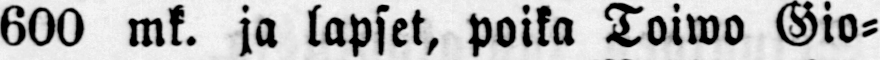600 mk. ja lapset, poika Toiwo Gio-
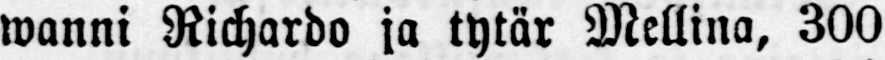wanni Richardo ja tytär Mellina, 300
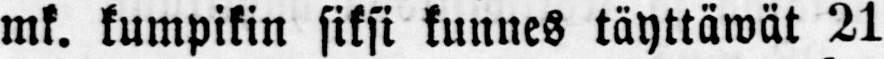mk. kumpikin siksi kunnes täyttäwät 21
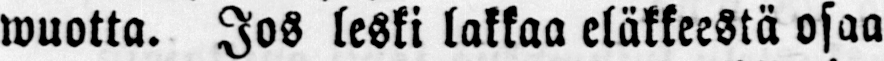wuotta. Jos leski lakkaa eläkkeestä osaa
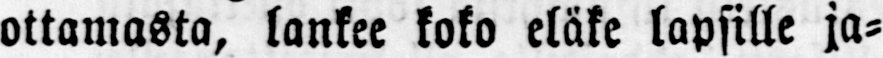ottamasta, lankee koko eläke lapsille ja-
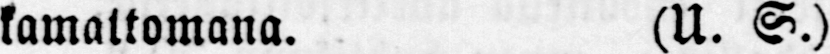kamattomana. (U. S.)
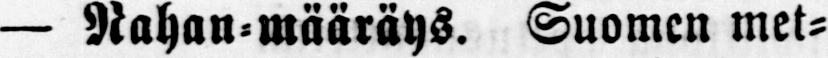— Rahan-määräys. Suomen met-
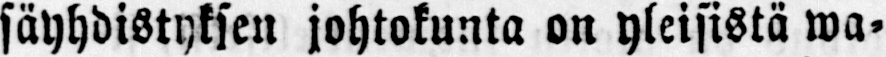säyhdistyksen johtokunta on yleisistä wa-
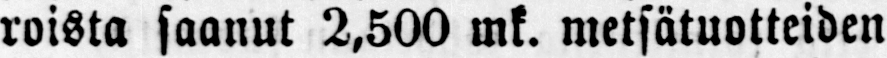roista saanut 2,500 mk. metsätuotteiden
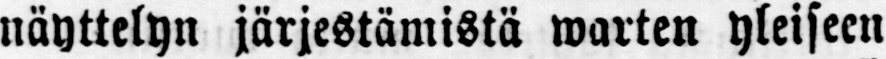näyttelyn järjestämistä warten yleiseen
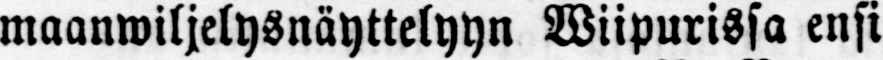maanwiljelysnäyttelyyn Wiipurissa ensi
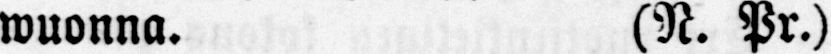wuonna. (N. Pr.)
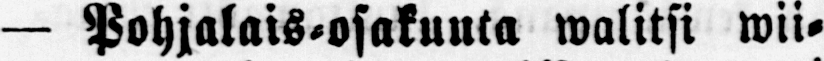— Pohjalais-osakunta walitsi wii-
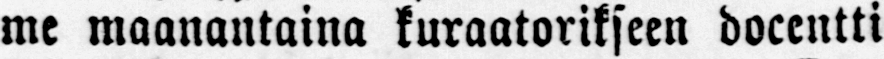me maanantaina kuraatorikseen docentti
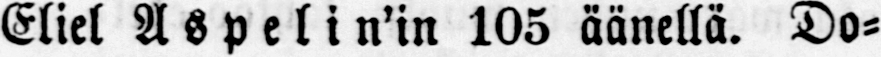Eliel Aspelin'in 105 äänellä. Do-
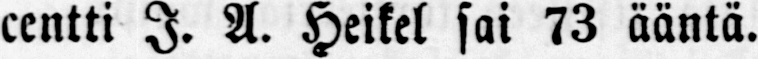centti J. A. Heikel sai 73 ääntä.
